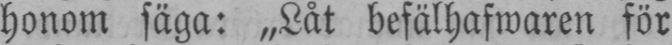honom säga: „Låt befälhafwaren för
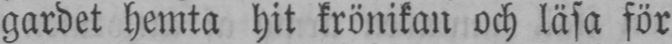gardet hemta hit krönikan och läsa för
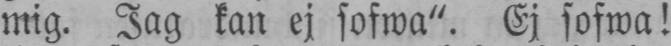mig. Jag kan ej sofwa". Ej sofwa!
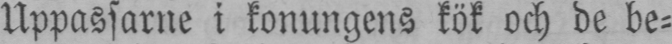Uppassarne i konungens kök och de be-
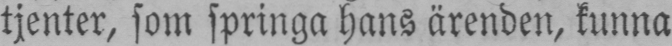tjenter, som springa hans ärenden, kunna
